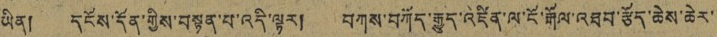ཡིན། དངོས་དོན་གྱིས་བསྟན་པ་འདི་ལྟར། བཀས་བཀོད་རྒྱུད་འཛིན་ལ་ངོ་རྒོལ་འཐབ་རྩོད་ཆེས་ཆེར་
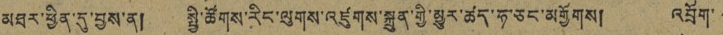མཐར་ཕྱིན་དུ་བྱས་ན། སྤྱི་ཚོགས་རིང་ལུགས་འཛུགས་སྐྲུན་གྱི་མྱུར་ཚད་ཧ་ཅང་མགྱོགས། འབྲོག་
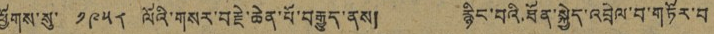ཕྱོགས་སུ་ ༡༩༥༨ ལོའི་གསར་བརྗེ་ཆེན་པོ་བརྒྱུད་ནས། རྙིང་བའི་ཐོན་སྐྱེད་འབྲེལ་བ་གཏོར་བ
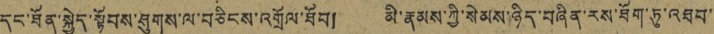དང་ཐོན་སྐྱེད་སྟོབས་ཤུགས་ལ་བཅིངས་འགྲོལ་ཐོབ། མི་རྣམས་ཀྱི་སེམས་ཉིད་བཞིན་རས་ཐོག་ཏུ་འཐབ་
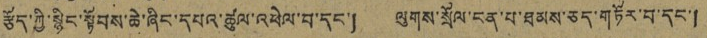རྩོད་ཀྱི་སྙིང་སྟོབས་ཆེ་ཞིང་དཔའ་ཚུལ་འཕེལ་བ་དང་། ལུགས་སྲོལ་ངན་པ་ཐམས་ཅད་གཏོར་བ་དང་།
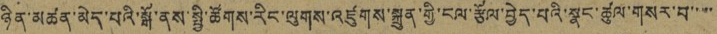ཉིན་མཚན་མེད་པའི་སྒོ་ནས་སྤྱི་ཚོགས་རིང་ལུགས་འཛུགས་སྐྲུན་གྱི་ངལ་རྩོལ་བྱེད་པའི་སྣང་ཚུལ་གསར་བ་་་་
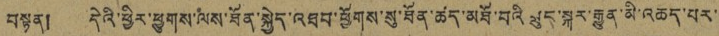བསྟན། དེའི་ཕྱིར་ཕྱུགས་ལས་ཐོན་སྐྱེད་འཐབ་ཕྱོགས་སུ་ཐོན་ཚད་མཐོ་བའི་ཟུང་སྐར་རྒྱུན་མི་འཆད་པར་
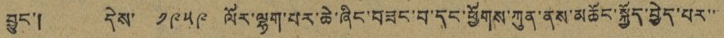བྱུང་། དེས་ ༡༩༥༩ ལོར་ལྷག་པར་ཆེ་ཞིང་བཟང་བ་དང་ཕྱོགས་ཀུན་ནས་མཆོང་སྐྱོད་བྱེད་པར་་
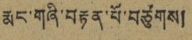རྨང་གཞི་བརྟན་པོ་བཙུགས།
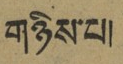གཉིས་པ།
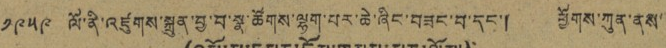༡༩༥༩ ལོ་ནི་འཛུགས་སྐྲུན་བྱ་བ་སྣ་ཚོགས་ལྷག་པར་ཆེ་ཞིང་བཟང་བ་དང་། ཕྱོགས་ཀུན་ནས་
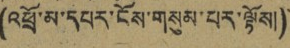(འཕྲོ་མ་དཔར་ངོས་གསུམ་པར་ལྟོས།)
